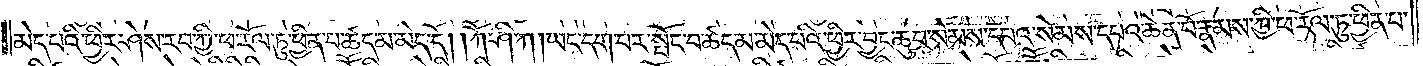མེད་པའི་ཕྱིར་ཤེས་རབ་ཀྱི་ཕ་རོལ་ཏུ་ཕྱིན་པ་ཚད་མ་མེད་དོ། །ཀཽ་ཤི་ཀ །ཡང་དག་པར་སྤོང་བ་ཚད་མ་མེད་པའི་ཕྱིར་བྱང་ཆུབ་སེམས་དཔའ་སེམས་དཔའ་ཆེན་པོ་རྣམས་ཀྱི་ཕ་རོལ་ཏུ་ཕྱིན་པ་
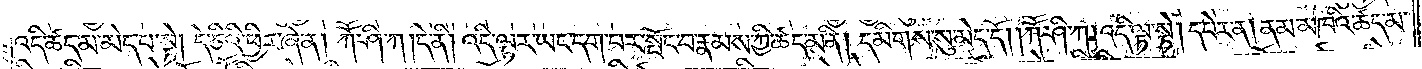འདི་ཚད་མ་མེད་པ་སྟེ། དེ་ཅིའི་ཕྱིར་ཞེ་ན། ཀཽ་ཤི་ཀ །དེ་ནི། འདི་ལྟར་ཡང་དག་པར་སྤོང་བ་རྣམས་ཀྱི་ཚད་མ་ནི། དམིགས་སུ་མེད་དོ། །ཀཽ་ཤི་ཀ །འདི་ལྟ་སྟེ། དཔེར་ན། ནམ་མཁའི་ཚད་མ་
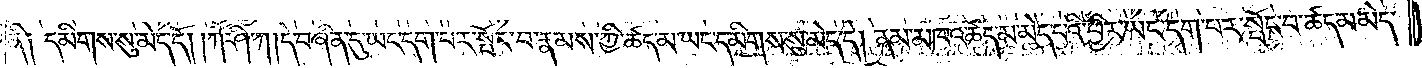ནི༑ དམིགས་སུ་མེད་དོ། །ཀཽ་ཤི་ཀ །དེ་བཞིན་དུ་ཡང་དག་པར་སྤོང་བ་རྣམས་ཀྱི་ཚད་མ་ཡང་དམིགས་སུ་མེད་དེ། ནམ་མཁའ་ཚད་མ་མེད་པའི་ཕྱིར་ཡང་དག་པར་སྤོང་བ་ཚད་མ་མེད་
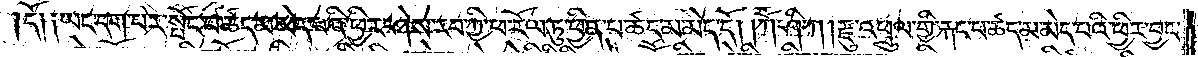དོ༑ ༑ཡང་དག་པར་སྤོང་བ་ཚད་མ་མེད་པའི་ཕྱིར་ཤེས་རབ་ཀྱི་ཕ་རོལ་ཏུ་ཕྱིན་པ་ཚད་མ་མེད་དོ། །ཀཽ་ཤི་ཀ །རྫུ་འཕྲུལ་གྱི་རྐང་པ་ཚད་མ་མེད་པའི་ཕྱིར་བྱང་
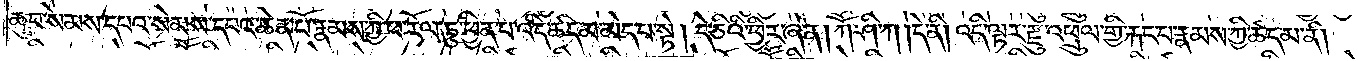ཆུབ་སེམས་དཔའ་སེམས་དཔའ་ཆེན་པོ་རྣམས་ཀྱི་ཕ་རོལ་ཏུ་ཕྱིན་པ་འདི་ཚད་མ་མེད་པ་སྟེ། དེ་ཅིའི་ཕྱིར་ཞེ་ན། ཀཽ་ཤི་ཀ །དེ་ནི། འདི་ལྟར་རྫུ་འཕྲུལ་གྱི་རྐང་པ་རྣམས་ཀྱི་ཚད་མ་ནི།
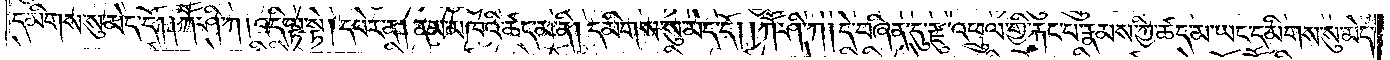དམིགས་སུ་མེད་དོ། །ཀཽ་ཤི་ཀ །འདི་ལྟ་སྟེ། དཔེར་ན། ནམ་མཁའི་ཚད་མ་ནི། དམིགས་སུ་མེད་དོ། །ཀཽ་ཤི་ཀ །དེ་བཞིན་དུ་རྫུ་འཕྲུལ་གྱི་རྐང་པ་རྣམས་ཀྱི་ཚད་མ་ཡང་དམིགས་སུ་མེད་
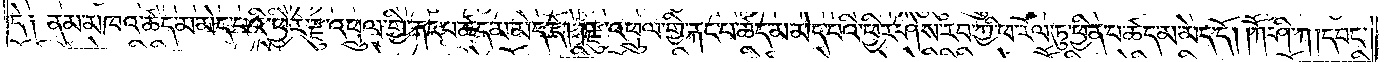དེ༑ ནམ་མཁའ་ཚད་མ་མེད་པའི་ཕྱིར་རྫུ་འཕྲུལ་གྱི་རྐང་པ་ཚད་མ་མེད་དོ། །རྫུ་འཕྲུལ་གྱི་རྐང་པ་ཚད་མ་མེད་པའི་ཕྱིར་ཤེས་རབ་ཀྱི་ཕ་རོལ་ཏུ་ཕྱིན་པ་ཚད་མ་མེད་དོ། །ཀཽ་ཤི་ཀ །དབང་
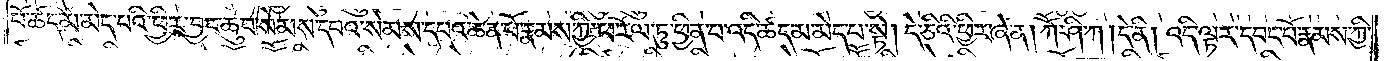པོ་ཚད་མ་མེད་པའི་ཕྱིར་བྱང་ཆུབ་སེམས་དཔའ་སེམས་དཔའ་ཆེན་པོ་རྣམས་ཀྱི་ཕ་རོལ་ཏུ་ཕྱིན་པ་འདི་ཚད་མ་མེད་པ་སྟེ། དེ་ཅིའི་ཕྱིར་ཞེ་ན། ཀཽ་ཤི་ཀ །དེ་ནི། འདི་ལྟར་དབང་པོ་རྣམས་ཀྱི་
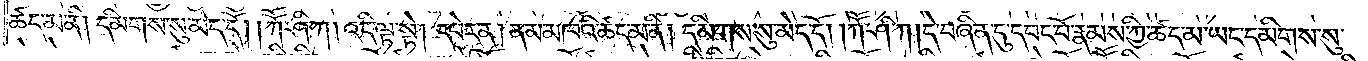ཚད་མ་ནི། དམིགས་སུ་མེད་དོ། །ཀཽ་ཤི་ཀ། འདི་ལྟ་སྟེ། དཔེར་ན། ནམ་མཁའི་ཚད་མ་ནི། དམིགས་སུ་མེད་དོ། །ཀཽ་ཤི་ཀ །དེ་བཞིན་དུ་དབང་པོ་རྣམས་ཀྱི་ཚད་མ་ཡང་དམིགས་སུ་
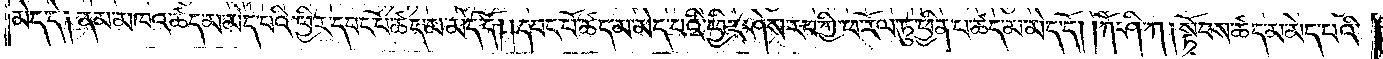མེད་དེ། ནམ་མཁའ་ཚད་མ་མེད་པའི་ཕྱིར་དབང་པོ་ཚད་མ་མེད་དོ། །དབང་པོ་ཚད་མ་མེད་པའི་ཕྱིར་ཤེས་རབ་ཀྱི་ཕ་རོལ་ཏུ་ཕྱིན་པ་ཚད་མ་མེད་དོ། །ཀཽ་ཤི་ཀ །སྟོབས་ཚད་མ་མེད་པའི་
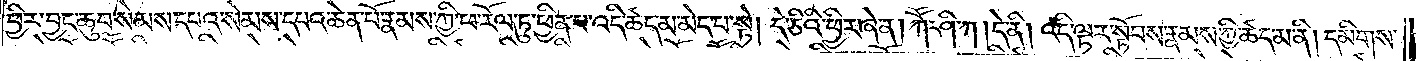ཕྱིར་བྱང་ཆུབ་སེམས་དཔའ་སེམས་དཔའ་ཆེན་པོ་རྣམས་ཀྱི་ཕ་རོལ་ཏུ་ཕྱིན་པ་འདི་ཚད་མ་མེད་པ་སྟེ། དེ་ཅིའི་ཕྱིར་ཞེ་ན། ཀཽ་ཤི་ཀ །དེ་ནི། འདི་ལྟར་སྟོབས་རྣམས་ཀྱི་ཚད་མ་ནི། དམིགས་
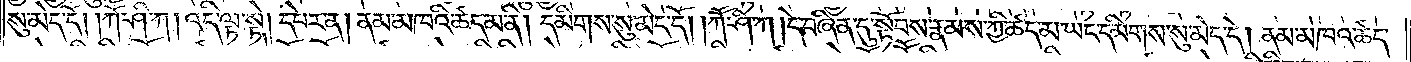སུ་མེད་དོ། །ཀཽ་ཤི་ཀ །འདི་ལྟ་སྟེ། དཔེར་ན། ནམ་མཁའི་ཚད་མ་ནི། དམིགས་སུ་མེད་དོ། ཀཽ་ཤི་ཀ །དེ་བཞིན་དུ་སྟོབས་རྣམས་ཀྱི་ཚད་མ་ཡང་དམིགས་སུ་མེད་དེ། ནམ་མཁའ་ཚད་
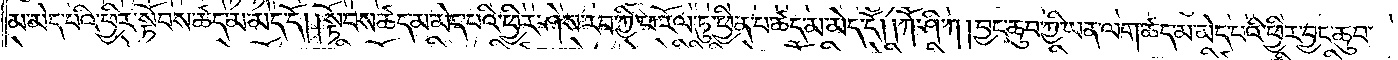མ་མེད་པའི་ཕྱིར་སྟོབས་ཚད་མ་མེད་དོ། །སྟོབས་ཚད་མ་མེད་པའི་ཕྱིར་ཤེས་རབ་ཀྱི་ཕ་རོལ་ཏུ་ཕྱིན་པ་ཚད་མ་མེད་དོ། །ཀཽ་ཤི་ཀ །བྱང་ཆུབ་ཀྱི་ཡན་ལག་ཚད་མ་མེད་པའི་ཕྱིར་བྱང་ཆུབ་
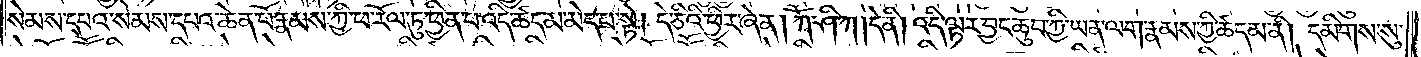སེམས་དཔའ་སེམས་དཔའ་ཆེན་པོ་རྣམས་ཀྱི་ཕ་རོལ་ཏུ་ཕྱིན་པ་འདི་ཚད་མ་མེད་པ་སྟེ། དེ་ཅིའི་ཕྱིར་ཞེ་ན། ཀཽ་ཤི་ཀ །དེ་ནི། འདི་ལྟར་བྱང་ཆུབ་ཀྱི་ཡན་ལག་རྣམས་ཀྱི་ཚད་མ་ནི། དམིགས་སུ་
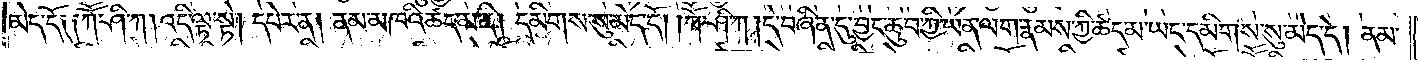མེད་དོ། །ཀཽ་ཤི་ཀ །འདི་ལྟ་སྟེ། དཔེར་ན། ནམ་མཁའི་ཚད་མ་ནི། དམིགས་སུ་མེད་དོ། །ཀཽ་ཤི་ཀ །དེ་བཞིན་དུ་བྱང་ཆུབ་ཀྱི་ཡན་ལག་རྣམས་ཀྱི་ཚད་མ་ཡང་དམིགས་སུ་མེད་དེ། ནམ་
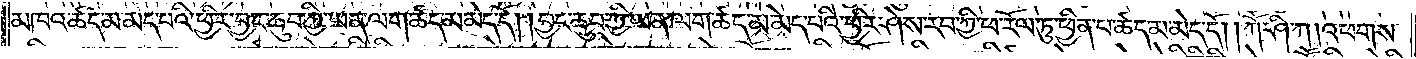མཁའ་ཚད་མ་མེད་པའི་ཕྱིར་བྱང་ཆུབ་ཀྱི་ཡན་ལག་ཚད་མ་མེད་དོ། །བྱང་ཆུབ་ཀྱི་ཡན་ལག་ཚད་མ་མེད་པའི་ཕྱིར་ཤེས་རབ་ཀྱི་ཕ་རོལ་ཏུ་ཕྱིན་པ་ཚད་མ་མེད་དོ། །ཀཽ་ཤི་ཀ །འཕགས་
